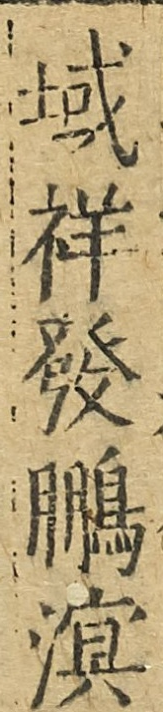域祥發鵬溟
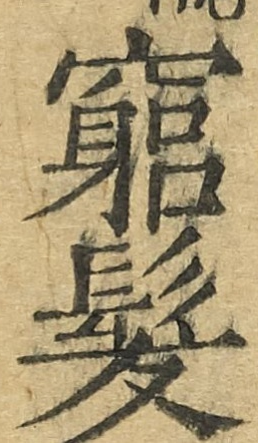窮髮
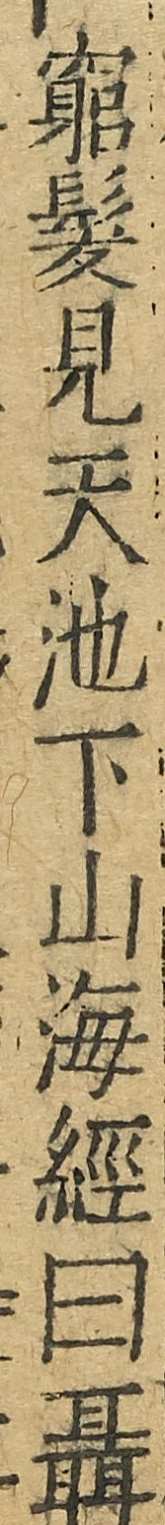窮髪見天池下山海經曰聶
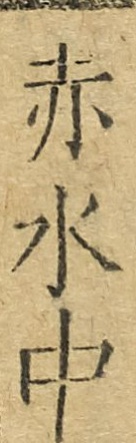赤水中
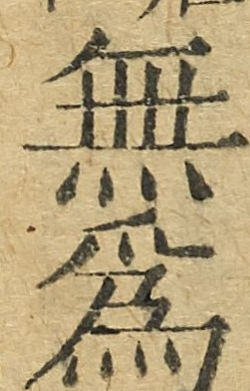無為
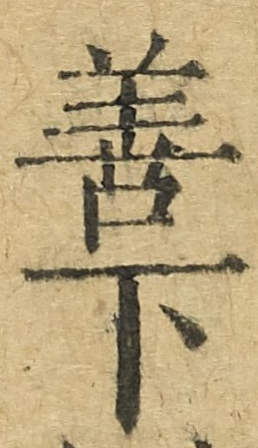善下
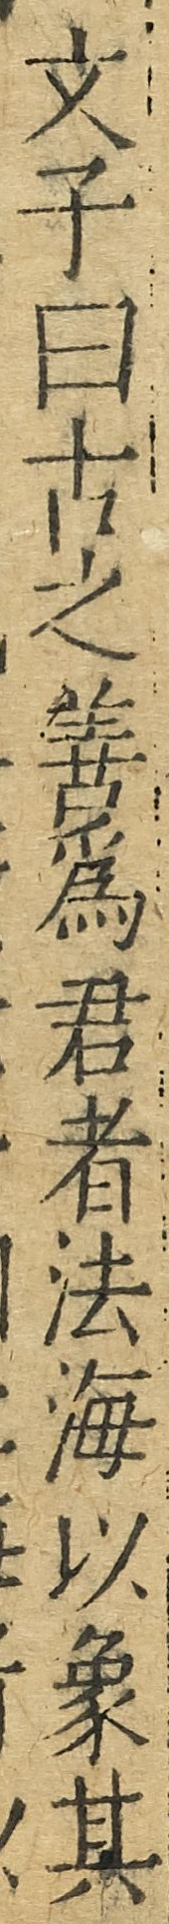文子曰古之善為君者法海以象其
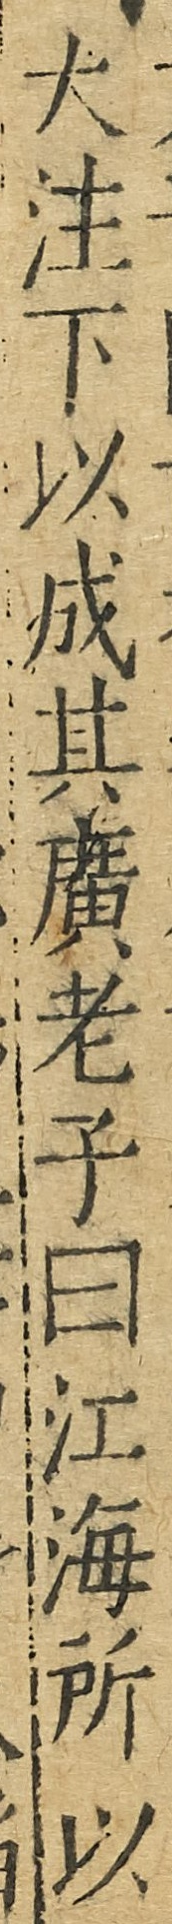大注下以成其廣老子曰江海所以
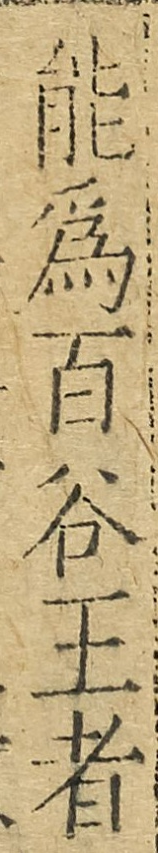能為百谷王者
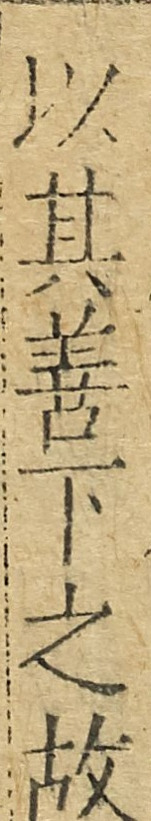以其善下之故
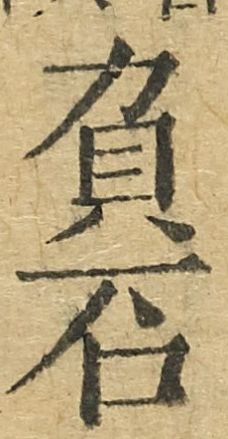負石
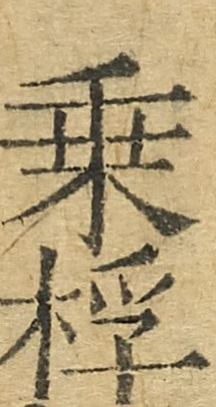乘桴
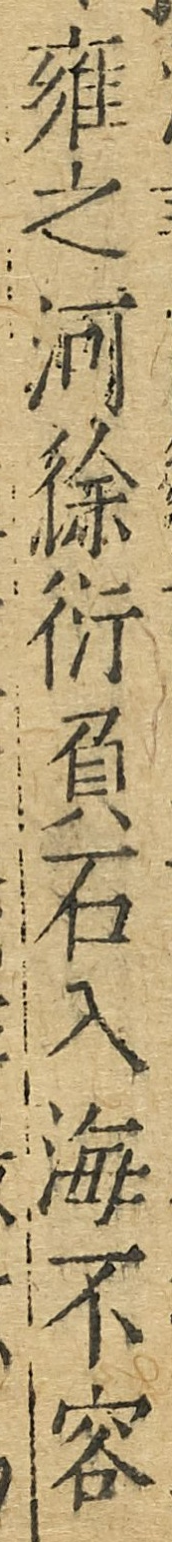雍之河徐衍負石入海不容
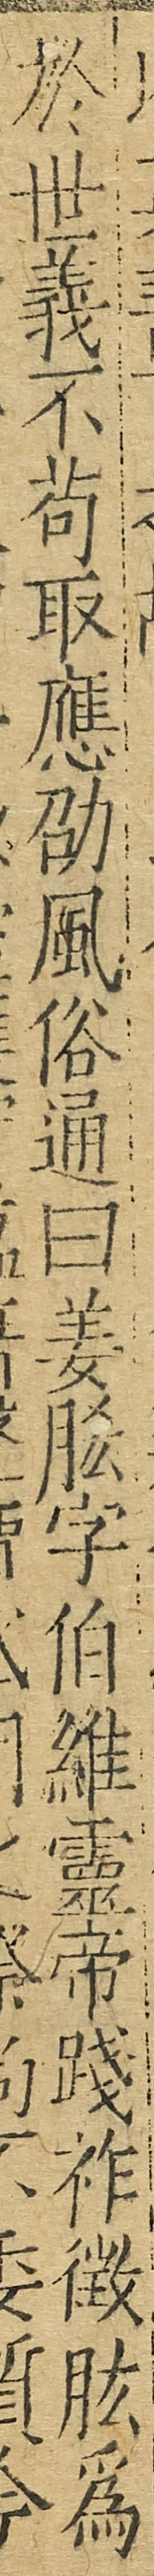於世義不苟取應劭風俗通曰姜肱字伯維靈帝踐祚徵肱為
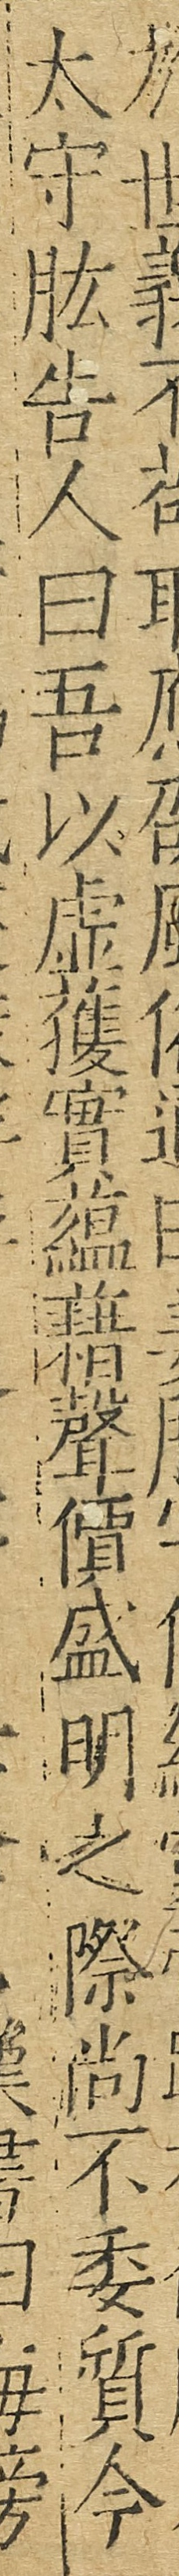太守肱告人曰吾以虛獲實蘊藉聲價盛明之際尚不委質今
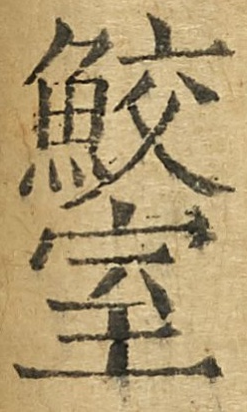鮫室
